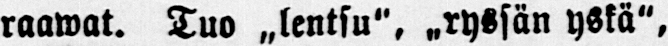raawat. ˶Tuo ˶lentsu", ˶ryssän yskä",
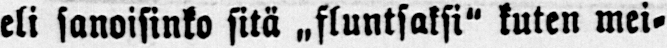eli sanoisinko sitä ˶fluntsaksi" kuten mei-
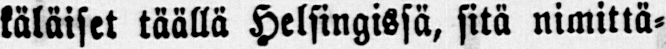käläiset täällä Helsingissä, sitä nimittä-
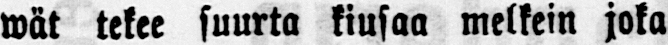wät tekee suurta kiusaa melkein joka
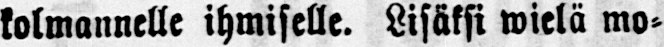kolmannelle ihmiselle. Lisäksi wielä mo-
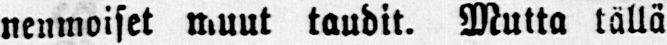nenmoiset muut taudit. Mutta tällä
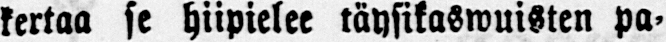kertaa se hiipielee täysikasewuisten pa-
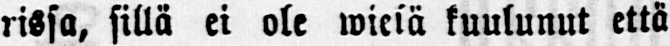rissa, sillä ei ole wielä kuulunut että
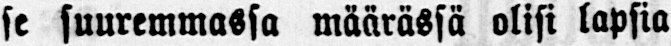se suuremmassa määrässä olisi lapsia
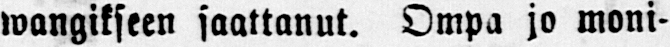wangikseen saattanut. Ompa jo moni-
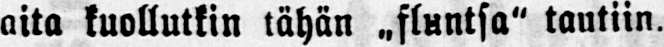aita kuollutkin tähän ˶fluntsa" tautiin.
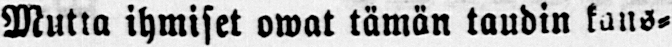Mutta ihmiset owat tämän taudin kans-
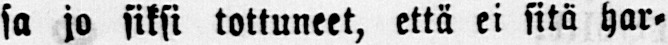sa jo siksi tottuneet, että ei sitä har-
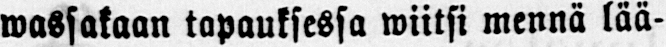wassakaan tapauksessa wiitsi mennä lää-
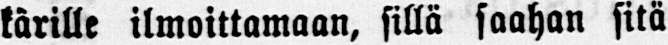kärille ilmoittamaan, sillä saahan sitä
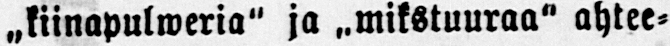˶kiinapulweria" ja ˶mikstuuraa" ahtee-
